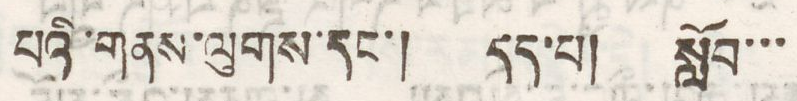པའི་གནས་ལུགས་དང་། དད་པ། སློབ་་་
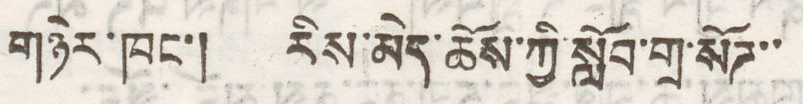གཉེར་ཁང་། རིས་མེད་ཆོས་ཀྱི་སློབ་གྲ་སོཌ་་
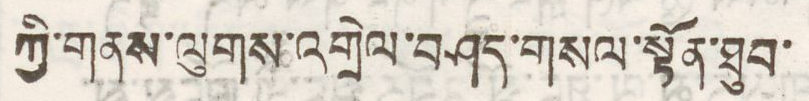ཀྱི་གནས་ལུགས་འགྲེལ་བཤད་གསལ་སྟོན་ཐུབ་
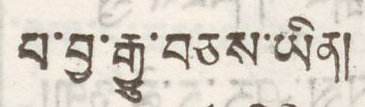པ་བྱ་རྒྱུ་བཅས་ཡིན།
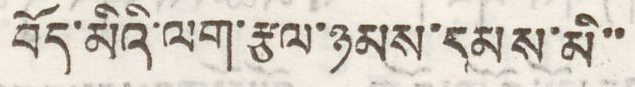བོད་མིའི་ལག་རྩལ་ཉམས་དམས་མི་་
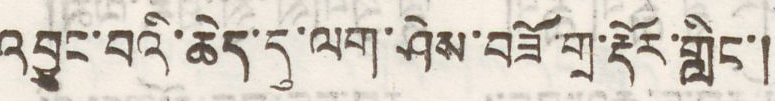འབྱུང་བའི་ཆེད་དུ་ལག་ཤེས་བཟོ་གྲ་རྡོར་གླིང་།
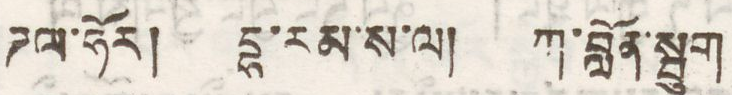ཌལ་ཧོར། དྷ་རམ་ས་ལ། ཀ་བློན་སྦུག
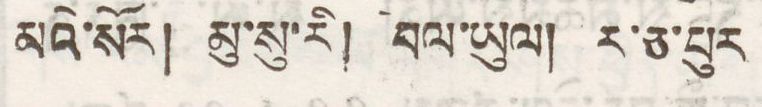མའི་སོར། མུ་སུ་རི། བལ་ཡུལ། ར་ཅ་པུར
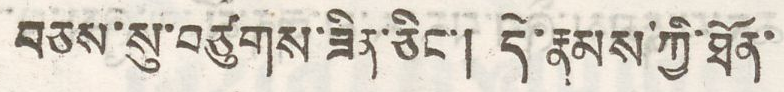བཅས་སུ་བཙུགས་ཟིན་ཅིང་། དེ་རྣམས་ཀྱི་ཐིན་
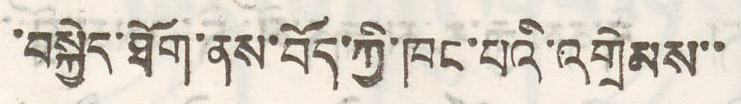་བསྐྱེད་ཐོག་ནས་བོད་ཀྱི་ཁང་པའི་འགྲེམས་་
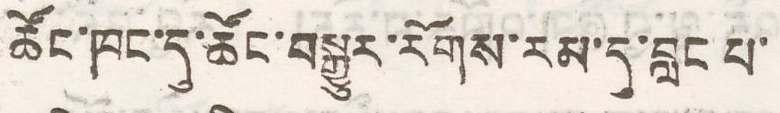ཚོང་ཁང་དུ་ཚོང་བསྒྱུར་རོགས་རམ་དུ་བླང པ་
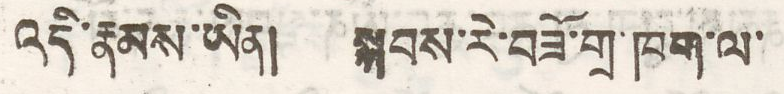འདི་རྣམས་ཡིན། སྐབས་རེ་བཟོ་གྲ་ཁག་ལ་
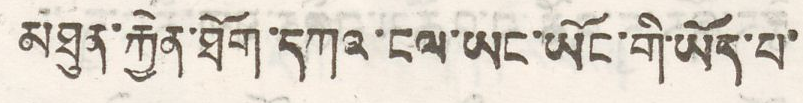མཐུན་རྐྱེན་ཐོག་དཀའ་ངལ་ཡང་ཡོང་གི་ཡོད་པ་
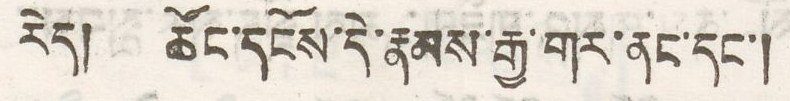རེད། ཚོང་དངོས་དེ་རྣམས་རྒྱ་གར་ནང་དང་།
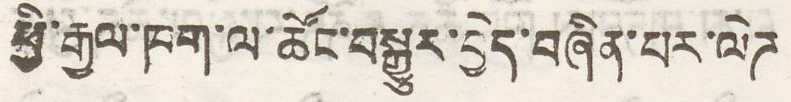ཕྱི་རྒྱལ་ཁག་ལ་ཚོང་བསྒྱུར་བྱེད་བཞིན་པར་ལེཌ
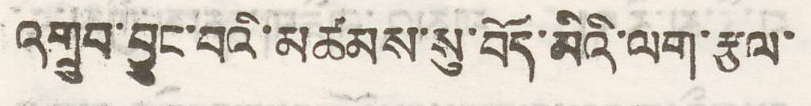འགྲུབ་བྱུང་བའི་མཚམས་སུ་བོད་མིའི་ལག་རྩལ་
